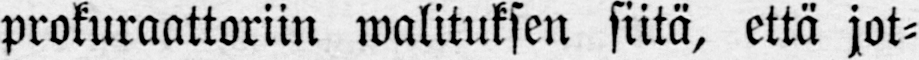prokuraattoriin walituksen siitä, että jot-
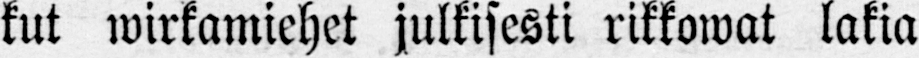kut wirkamiehet julkisesti rikkowat lakia
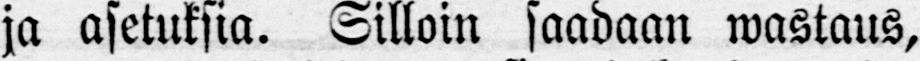ja asetuksia. Silloin saadaan wastaus,
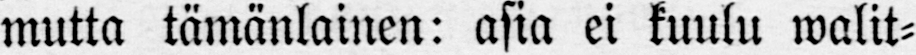mutta tämänlainen: asia ei kuulu walit-
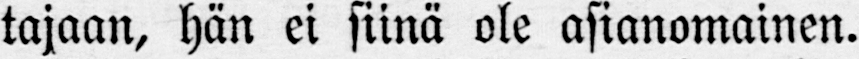tajaan, hän ei siinä ole asianomainen.
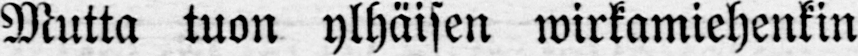Mutta tuon ylhäisen wirkamiehenkin
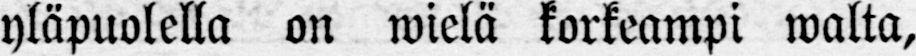yläpuolella on wielä korkeampi walta,
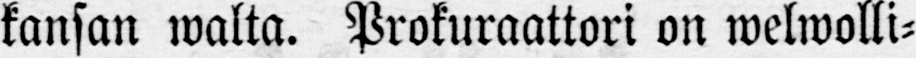kansan walta. Prokuraattori on welwolli-
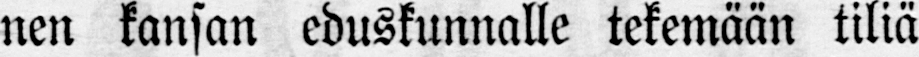nen kansan eduskunnalle tekemään tiliä
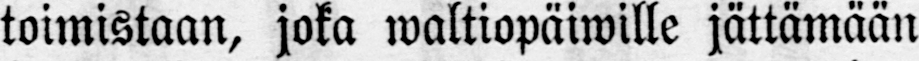toimistaan, joka waltiopäiwille jättämään
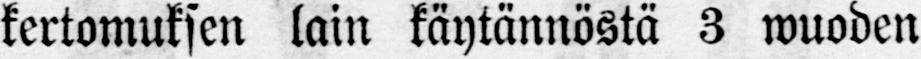kertomuksen lain käytännöstä 3 wuoden
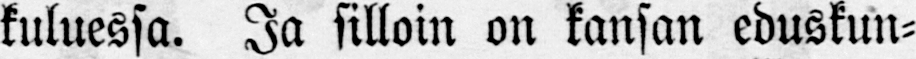killuessa. Ja silloin on kansan eduskun-
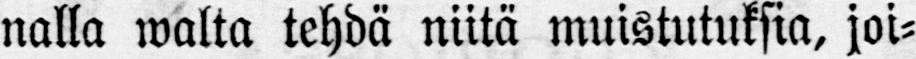nalla walta tehdä niitä muistutuksia, joi-
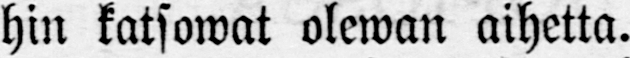hin katsowat olewan aihetta.
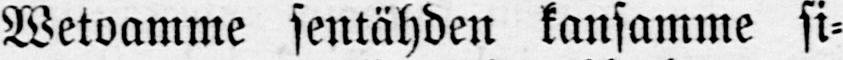Wetoamme sentähden kansamme si-
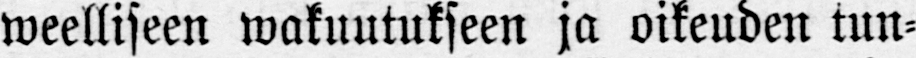weelliseen wakuutukseen ja oikeuden tun-
